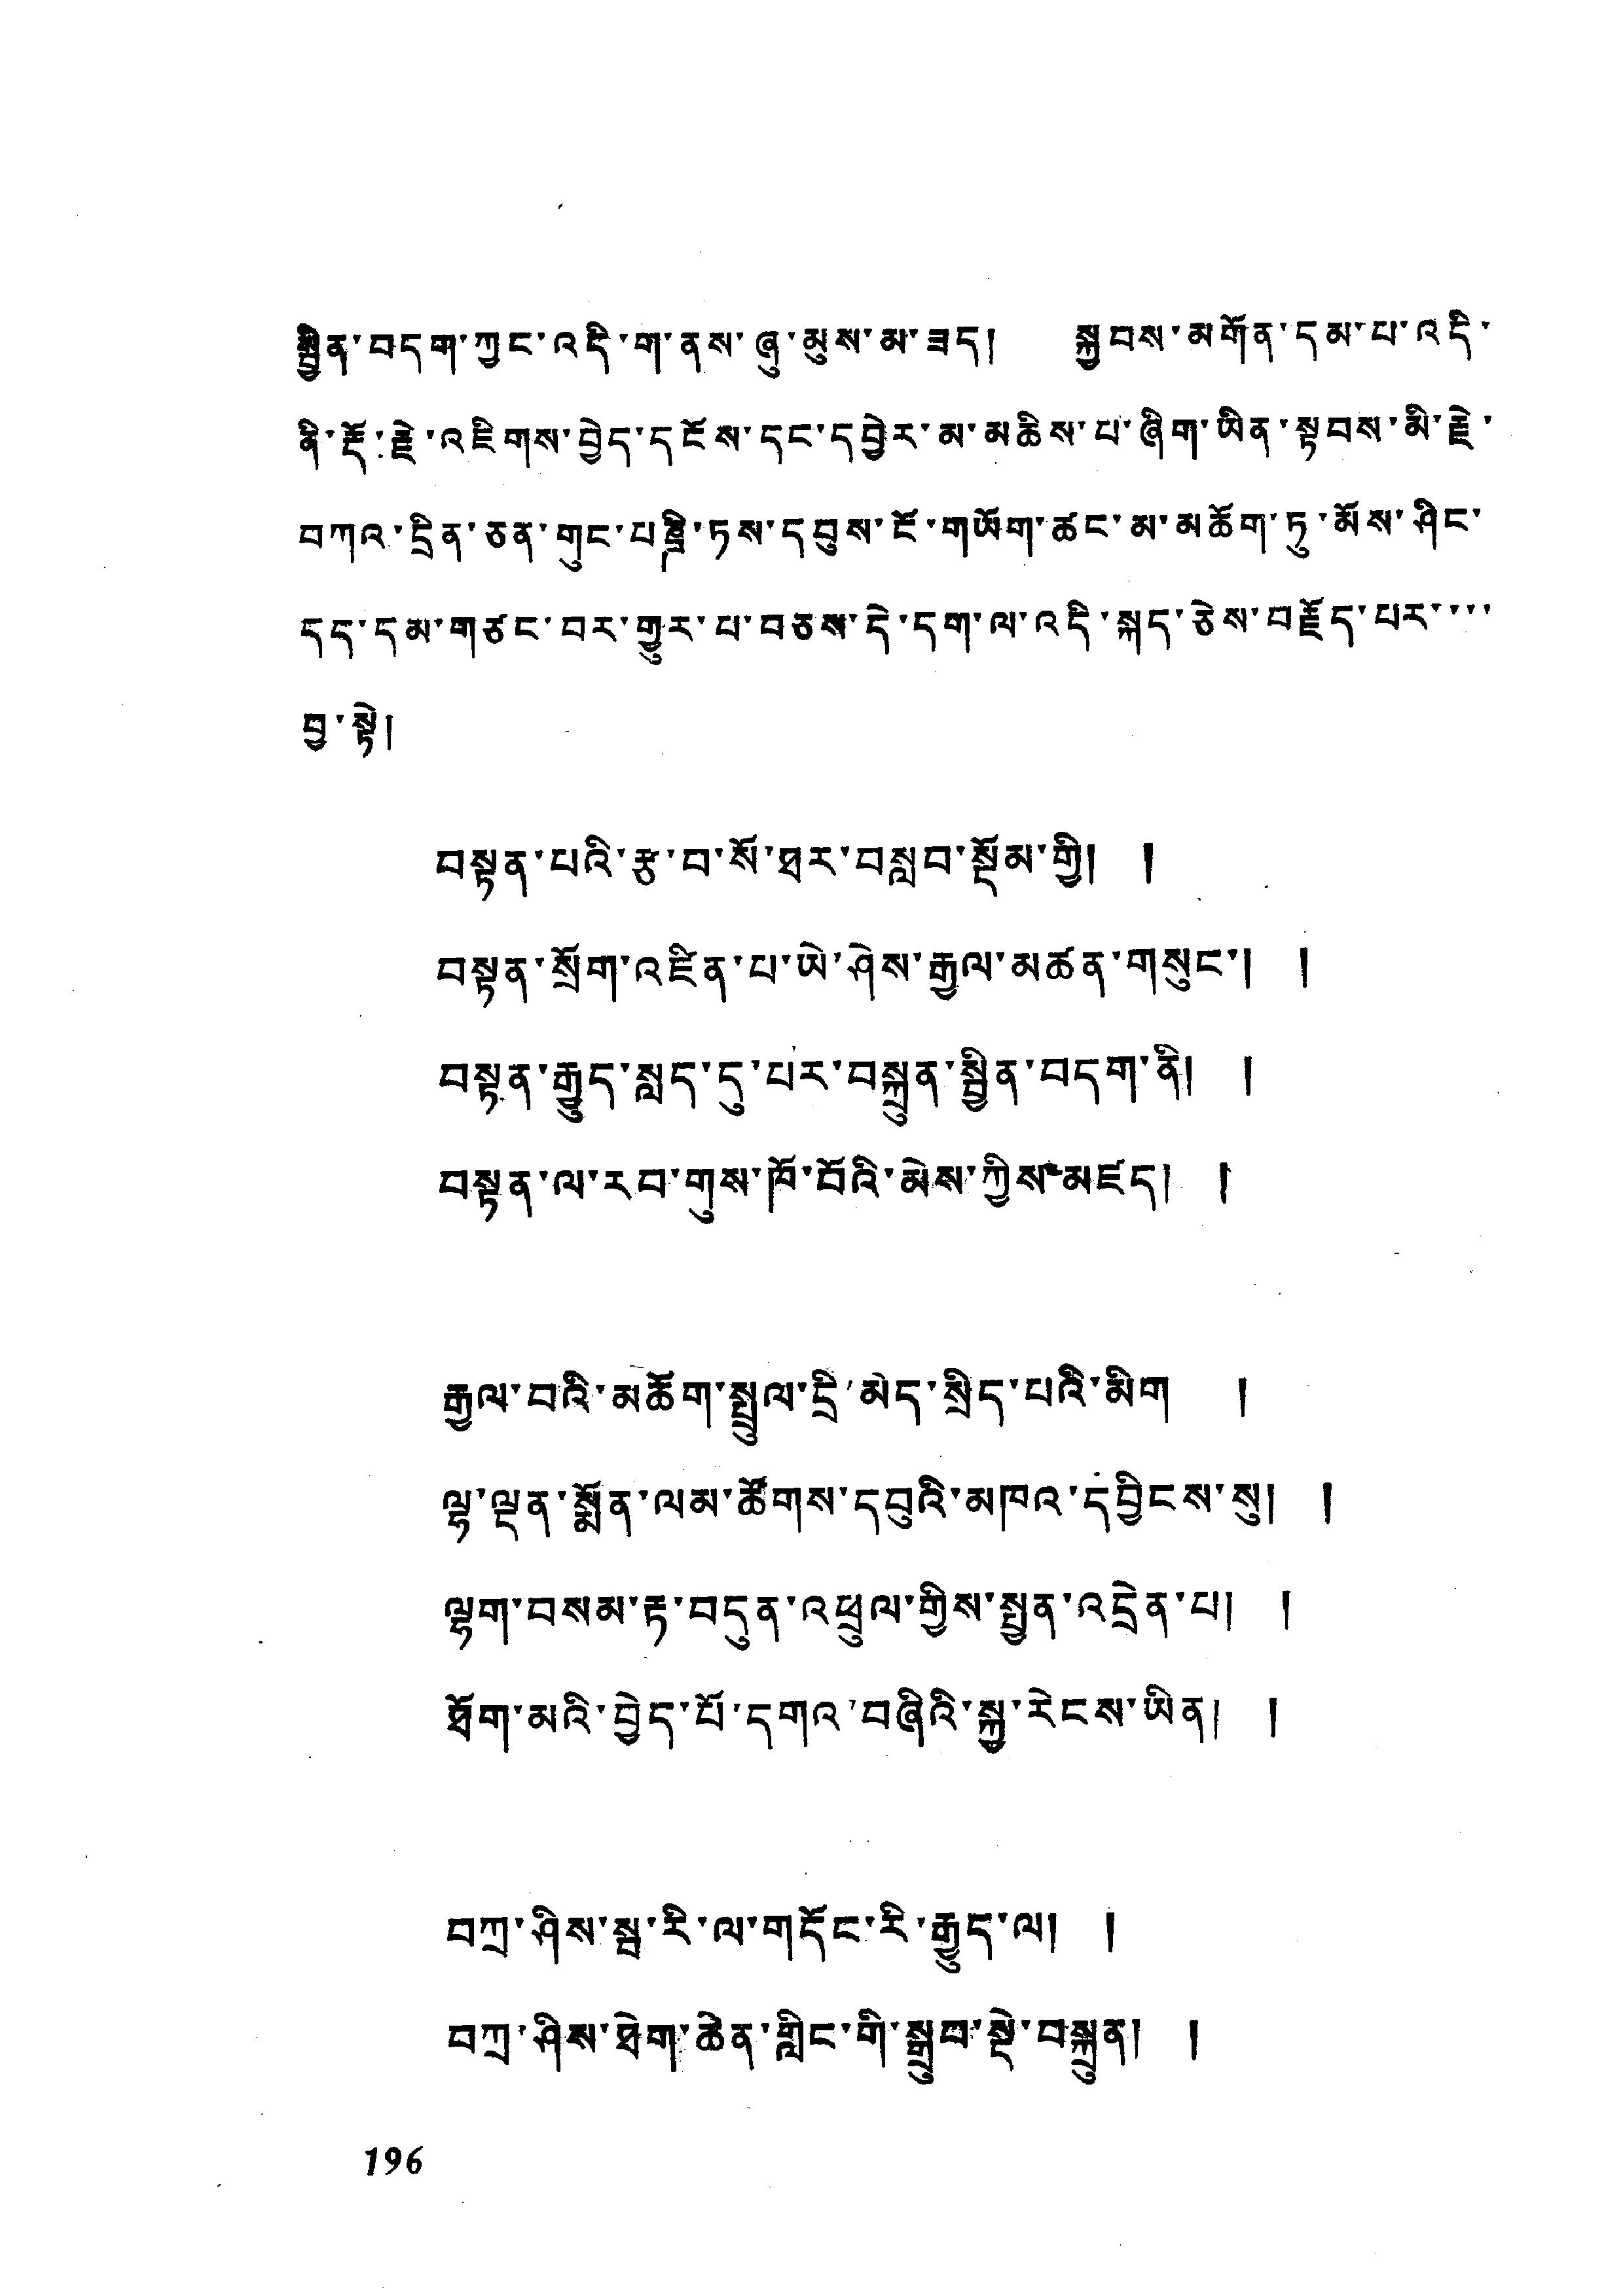སྦྱིན་བདག་ཀྱང་འདི་ག་ནས་ཞུ་མུས་མ་ཟད། སྐྱབས་མགོན་དམ་པ་འདི་
ནི་རྡོ་རྗེ་འཇིགས་བྱེད་དངོས་དང་དབྱེར་མ་མཆིས་པ་ཞིག་ཡིན་སྟབས་མི་རྗེ་
བཀའ་དྲིན་ཅན་གུང་པཎྜི་ཏས་དབུས་ངོ་གཡོག་ཚང་མ་མཆོག་ཏུ་མོས་ཤིང་
དད་དམ་གཙང་བར་གྱུར་པ་བཅས་དེ་དག་ལ་འདི་སྐད་ཅེས་བརྗོད་པར་་་་
བྱ་སྟེ།
བསྟན་པའི་རྩ་བ་སོ་ཐར་བསླབ་སྡོམ་གྱི། །
བསྟན་སྲོག་འཛིན་པ་ཡེ་ཤེས་རྒྱལ་མཚན་གསུང་། །
བསྟན་རྒྱུད་སླད་དུ་པར་བསྐྲུན་སྦྱིན་བདག་ནི། །
བསྟན་ལ་རབ་གུས་ཁོ་བོའི་མེས་ཀྱིས་མཛད། །
རྒྱལ་བའི་མཆོག་སྤྲུལ་དྲི་མེད་སྲིད་པའི་མིག །
ལྷ་ལྡན་སྨོན་ལམ་ཚོགས་དབུའི་མཁའ་དབྱིངས་སུ། །
ལྷག་བསམ་རྟ་བདུན་འཕྲུལ་གྱིས་སྤྱན་འདྲེན་པ། །
ཐོག་མའི་བྱེད་པོ་དགའ་བཞིའི་སྐྱ་རེངས་ཡིན། །
བཀྲ་ཤིས་སྦ་རི་ལ་གདོང་རི་རྒྱུད་ལ། །
བཀྲ་ཤིས་ཐེག་ཆེན་གླིང་གི་སྒྲུབ་སྡེ་བསྐྲུན། །
196
